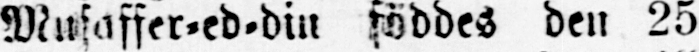Mufaffer-ed-din föddes den 25
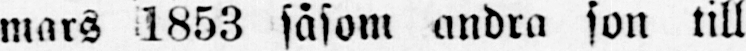mars 1853 såsom andra son till
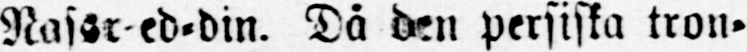Nassr-ed-din. Då den persiska tron-
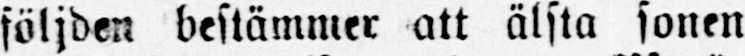följden bestämmer att älsta sonen
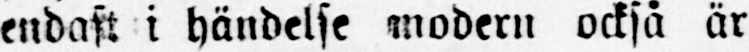endast i händelse modern också är
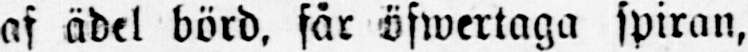af ädel börd, får öfwertaga spiran,
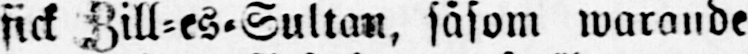fick Zill-es-Sultan, såsom warande
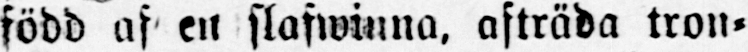född af en slafwinna, afträda tron-
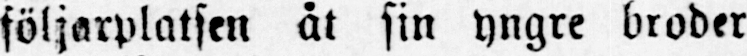följarplatsen åt sin yngre broder
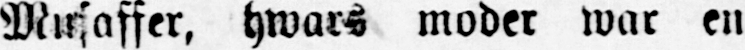Musaffer, hwars moder war en
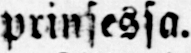prinsessa.
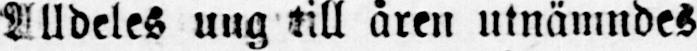Alldeles ung till åren utnämndes
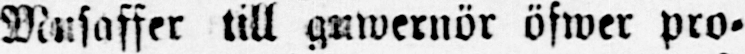Musaffer till guwernör öfwer pro-
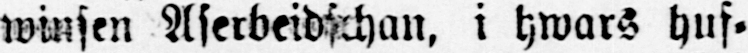winsen Aserbeidschan, i hwars huf-
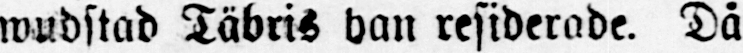wudstad Täbris han residerade. Då
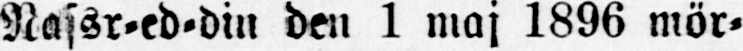Nassr-ed-din den 1 maj 1896 mör-
